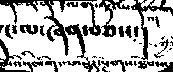རང་ལ་ཞེས་བཅས་།
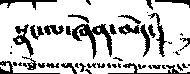སྣང་ལ་ཞེན་མེད་།
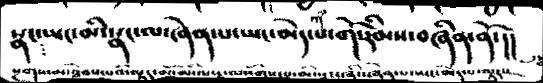སྣང་ཡང་མི་སྣང་ལ་ཞེན་པ་ཡང་མེད་པ་གོ་རིམས་བཞིན་ནོ་།།
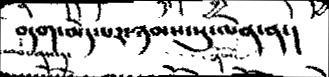བདག་མེད་པར་ཉམས་སུ་ལེན་ན་།
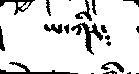ཡ་ཀིར༴
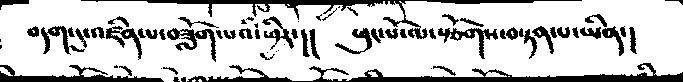བདག་དུ་འཛིན་པ་བཟློག་པའི་ཕྱིར་།།  ཕུང་པོ་ལ་སྩོགས་བསྟན་པ་ཡིན་།
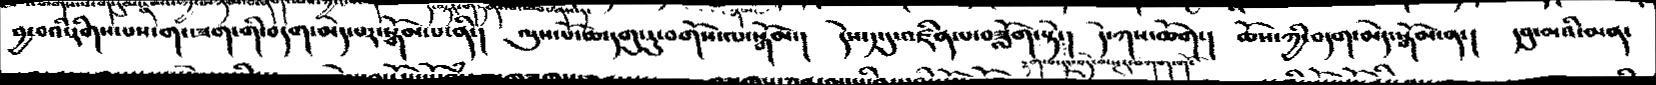བྱ་བའི་རིགས་པས་གང་ཟག་གི་བདག་མེད་པར་སྒོམ་པ་ནི་།  ལུས་པོ་ཆ་དགུ་རུ་བགོས་ལ་སྒོམ་།   དེས་༡་དུ་འཛིན་པ་བཟློག་སྟེ་།    དེ་ཀས་ཆོག་།   ཆོས་ཀྱི་བདག་མེད་སྒོམ་ན་།   དབུ་མའི་མན་
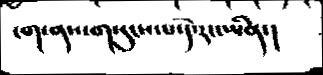ངག་ནས་གསུངས་པ་དེ་རང་ཡིན་།
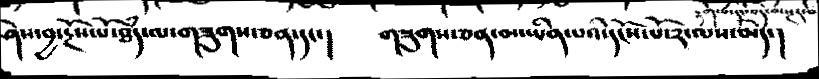ཤེས་བྱ་རྔོས་པོ་ཐཾད་ལ་གཟུགས་ཅན་དང་།   གཟུགས་ཅན་མ་ཡིན་པའི་དངོས་པོ་༢་ལས་མེད་།
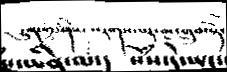ཡིན་ལ་།   སེཾས་དེ་ཡང་
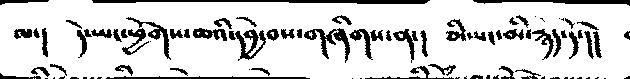ལ་།   དེ་ཡང་ཕྱོགས་ཆའི་དབྱེ་བས་གཞིགས་ན་།  ཅི་ཡང་མི་རྙེད་དོ་།།
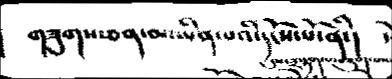གཟུགས་ཅན་མ་ཡིན་པའི་དངོས་པོ་ནི་།
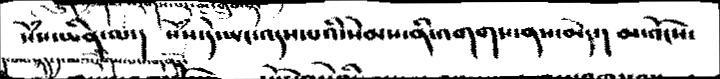སེཾས་ཡིན་ལ་།    སེཾས་དེ་ཡང་འདས་པའི་སེམས་ནི་འགགས་ནས་མེད་།  མ་འོངས་
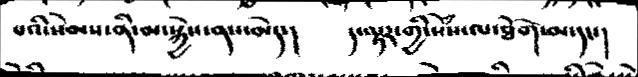པའི་སེམས་ནི་མ་སྐྱེས་ནས་མེད་།   ད་ལྟར་གྱི་སེཾས་ལ་ཐོག་མ་དང་།
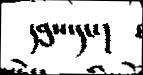དབུས་དང་།
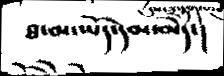ཐ་མ་ཡོད་དམ་མེད་།
